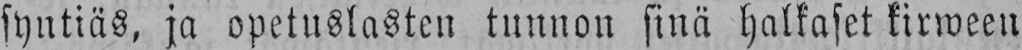syntiäs, ja opetuslasten tunnon sinä halkaset kirween
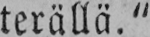terällä."
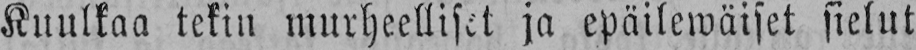Kuulkaa tekin murheelliset ja epäilewäiset sielut
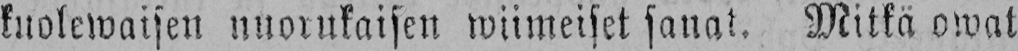kuolewaisen nuorukaisen wiimeiset sanat. Mitkä owat
